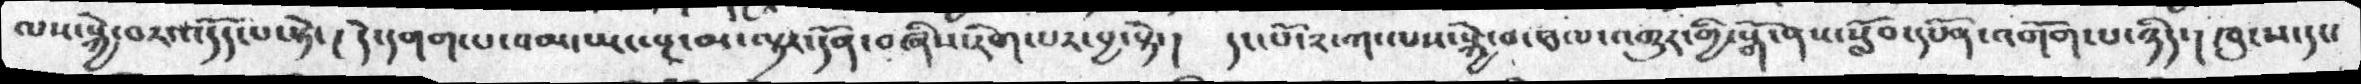ལས་སྐྱེ་བར་འདོད་པ་སྟེ་། དེ་དགག་པ་འམ་ཡང་སྔ་མ་ལྟར་དོན་བཞིས་རིག་པར་བྱ་སྟེ་། དང་པོ་༢་ཀ་ལས་སྐྱེ་བ་ཐལ་འགྱུར་གྱི་སྒོ་ནས་སློབ་དཔོན་འགོག་པ་ཉིད་། ཁུངས་དང་
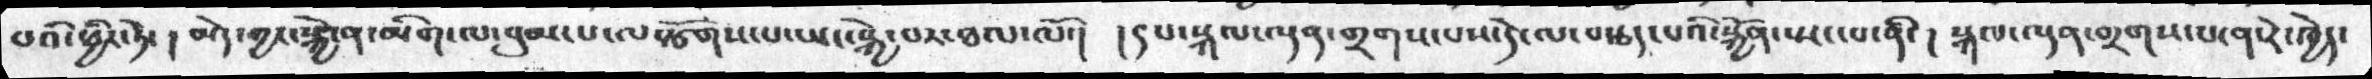པའི་ཕྱིར་ཏེ་། མེད་ཀྱང་སྐྱེ་ན་མིག་ལ་བུམ་པ་ལ་སཙོགས་པ་ཡང་སྐྱེ་བར་ཐལ་ལོ་། །༩པ་སྐལ་ལྡན་གྲགས་པས་དེ་ལ་བསྩད་པའི་སྐྱོན་སྤང་པ་ནི་། སྐལ་ལྡན་གྲགས་པ་ན་རེ་ཁྱེད་
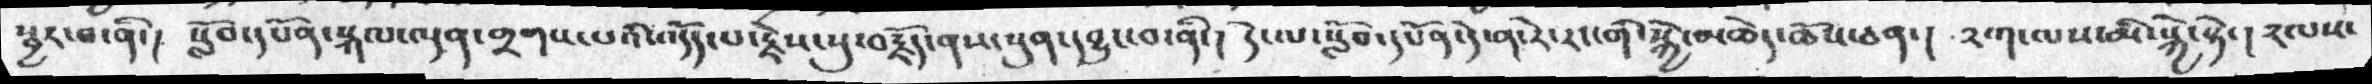སྦྱར་བ་ནི་། སློབ་དཔོན་སྐལ་ལྡན་གྲགས་པའི་འདོད་པ་རྗེས་སུ་བརྗོད་ནས་སུན་དབྱུང་བ་ནི་། དེ་ལ་སློབ་དཔོན་དེ་ན་རེ་རང་གི་སྐྱེ་མཆེད་ཆོས་ཅན་། ༢ག་ལས་མི་སྐྱེ་སྟེ་། ༢ལས་
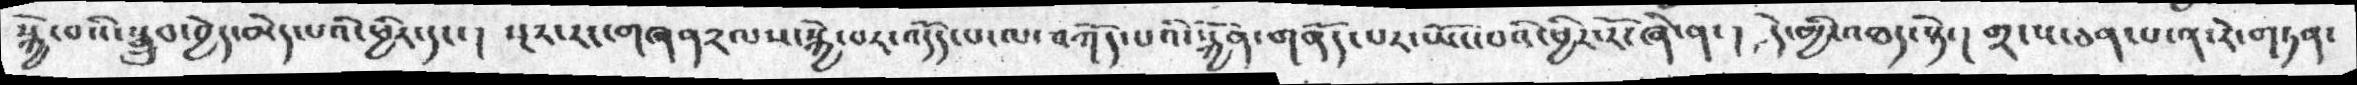སྐྱེ་བའི་སྒྲུབ་བྱེད་མེདད་པའི་ཕྱིར་དང་། སྔར་རང་གཞན༢ལས་སྐྱེ་བར་འདོད་པ་ལ་བཀོད་པའི་སྐྱོན་གནོད་པར་སྤོང་པའི་ཕྱིར་རོ་ཞེ་ན་། དེ་མྱི་འཐད་སྟེ་། གྲངས་ཅན་པ་ན་རེ་གཏན་
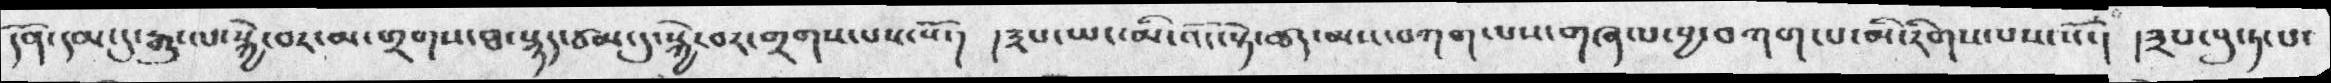དོན་དམ་དུ་རྒྱུ་ལ་སྐྱེ་བར་མ་གྲགས་ཐ་སྙད་ཙམ་དུ་སྐྱེ་བར་གྲགས་པས་སོ་།  །༣པ་ཡང་མི་འོང་སྟེ་ཚད་མས་བཀག་པས་གཞལ་བྱ་བཀག་པ་མི་རིགས་པས་སོ་། །༣པ་བུ་ཏ་པ་
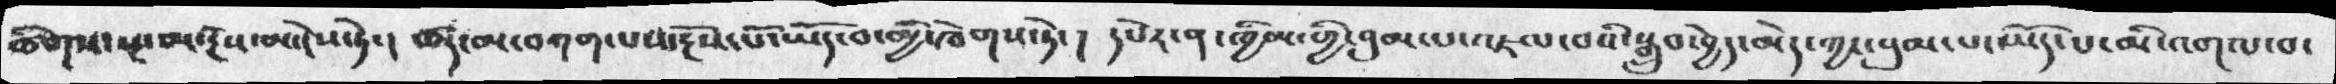ཚིགས་སྔ་མ་རྔོས་མ་ངེས་ཏེ་། ཚད་མ་བཀག་པས་རྔོས་པོ་ཡོད་བ་མྱི་ཁེགས་ཏེ་།  དཔེར་ན་ཁྱིམ་གྱི་བུམ་པ་འཇལ་བའི་སྒྲུབ་བྱེད་མེད་ཀྱང་བུམ་པ་ཡོད་པ་མི་འགལ་བ་
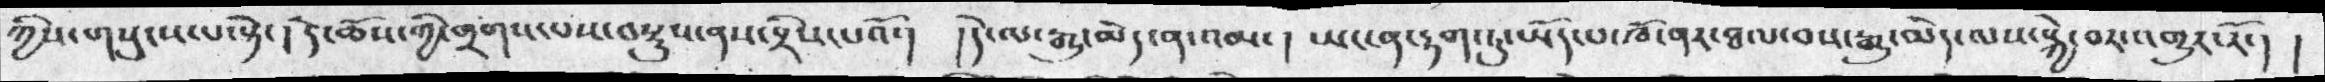ཀྱིས་གསུངས་པ་སྟེ་།  དེ་ཆོས་ཀྱི་གྲགས་པས་བསྡུས་ནས་བྲིས་པའོ་།  །དེ་ལ་རྒྱུ་མེད་ན་འམ་། ཡང་ན་རྟག་ཏུ་ཡོད་པ་ཁོ་ནར་ཐལ་བས་རྒྱུ་མེད་ལས་སྐྱེ་བར་འགྱུར་རོ་། །
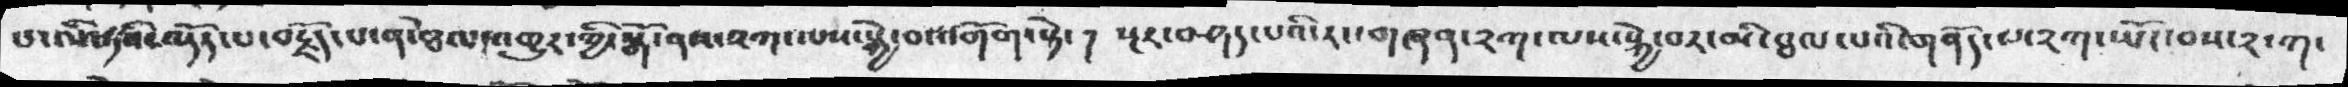པ་ལི་ཏའི་འདོད་པ་བརྗོད་པ་ན་ཐལ་འགྱུར་གྱི་སྒོ་ནས་༢ཀ་ལས་སྐྱེ་བ་འགོག་སྟེ་ ། སྔར་བཤད་པའི་རང་གཞན་༢ག་ལས་སྐྱེ་བར་མི་ཐལ་པའི་གནོད་པ་༢ག་སྤོང་བས་༢་ཀ་
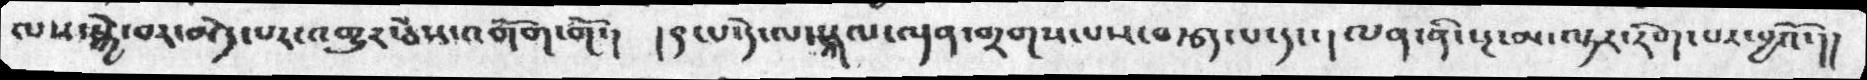ལས་སྐྱེ་བར་མེད་པར་འགྱུར་ཅེས་འགོག་གོ་། །༩་པ་དེ་ལ་སྐལ་ལྡན་གྲགས་པས་བརྩད་པ་དང་།  ལན་ནི་སྔ་མ་ལྟར་རིག་པར་བྱའོ་།།
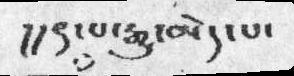།།༩་པ་རྒྱུ་མེད་པ་
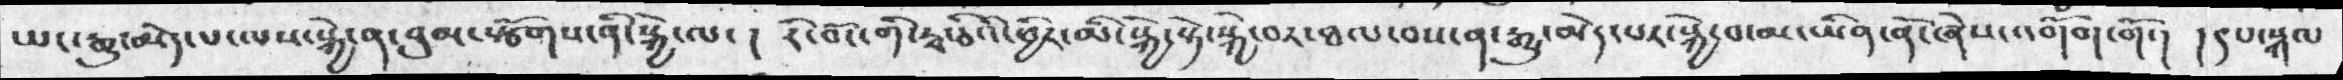ཡང་རྒྱུ་མེད་པ་ལས་སྐྱེ་ན་བུམ་སྩོགས་ནི་སྐྱེ་ལ་ ། རི་བོང་གི་རྭ་ཅིའི་ཕྱིར་མི་སྐྱ་སྟེ་སྐྱེ་བར་ཐལ་བས་ན་རྒྱུ་མེད་པར་སྐྱེ་བ་མ་ཡིན་ནོ་ཞེས་འགོག་གོ་།  ། ༩པ་སྐལ
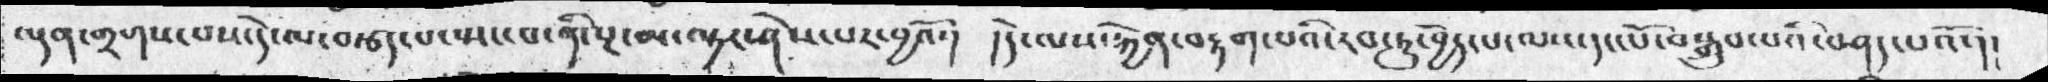ལྡན་གྲགས་པས་དེ་ལ་བརྩད་པ་སྤང་པ་ནི་སྔ་མ་ལྟར་ཤེས་པར་བྱའོ་། །དེ་ལས་རྐྱེན་བརྟག་པའི་རབ་ཏུ་བྱེད་པ་ལས་དང་པོ་བསྒྲུབ་པའི་བཤད་པའོ་།།
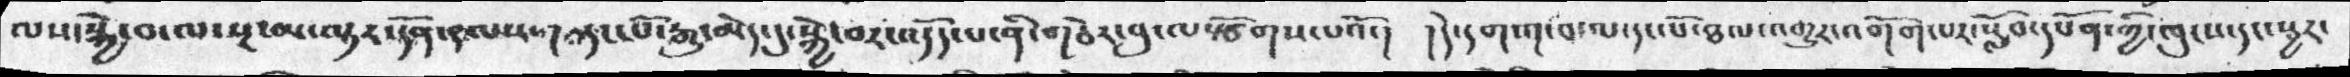ལས་སྐྱེ་བ་ལ་སྔ་མ་ལྟར་དོན་༩ལས་། དང་པོ་རྒྱུ་མེད་དུ་སྐྱེ་བར་འདོད་པ་ནི་གཅེར་བུ་ལསྩོགས་པའོ་།  །དེ་དགག་བ་ལ་དང་པོ་ཐལ་འགྱུར་འགོག་པར་སློབ་དཔོན་ཀྱི་ཁུངས་དང་སྦྱར་
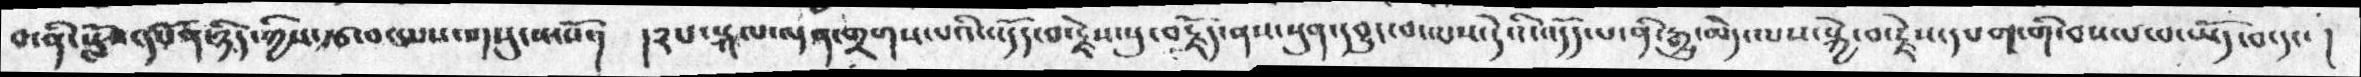བ་ནི་སློབ་དཔོན་ཉིད་ཀྱིས་རྩ་བ་ལས་གསུངས་སོ་། །༣པ་སྐལ་འདན་གྲགས་པའི་འདོད་པ་རྗེས་སུ་བརྗོད་ནས་སུན་དབྱུང་བ་ལས་དེའི་འདོད་པ་ནི་རྒྱུ་མེད་ལས་སྐྱེ་བ་རྗེས་དཔག་གི་བསལ་པ་ཡོད་བ་དང་ །
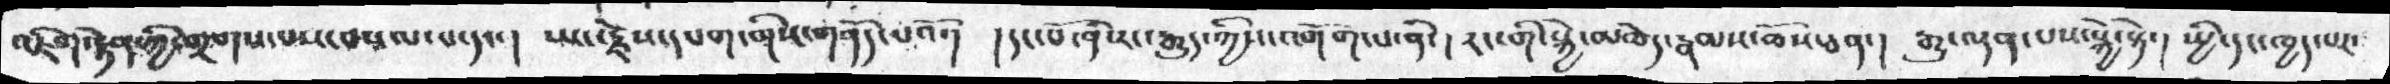འཇིག་རྟེན་ཀྱི་གྲགས་པས་བསལ་པ་དང་།  ཡང་རྗེས་དཔག་གིས་གནོད་པའོ་། །དང་པོ་ནི་རང་རྒྱུད་ཀྱིས་འགོག་པ་ནི་།  རང་གི་སྐྱེ་མཆེད་རྣམས་ཆོས་ཅན་། རྒྱུན་ལྡན་པས་སྐྱེ་སྟེ་། སྤྱི་དང་ཁྱད་པར་
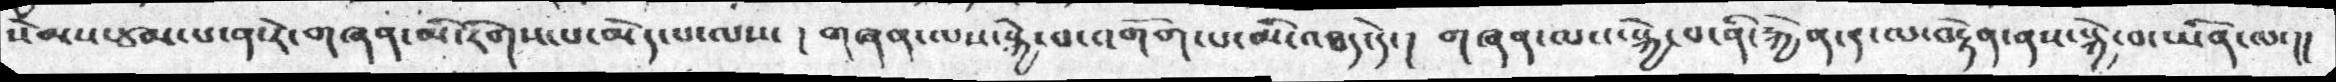སེམས་ཙམ་པ་ན་རེ་གཞན་མི་རིགས་པ་མེད་པ་ལས་ ། གཞན་ལས་སྐྱེ་བ་འགོག་པ་མི་འཐད་དེ་།  གཞན་ལས་སྐྱེ་བ་ནི་རྐྱེན་དེ་ལ་བརྟེན་ནས་སྐྱེ་བ་ཡིན་ལ་།།
